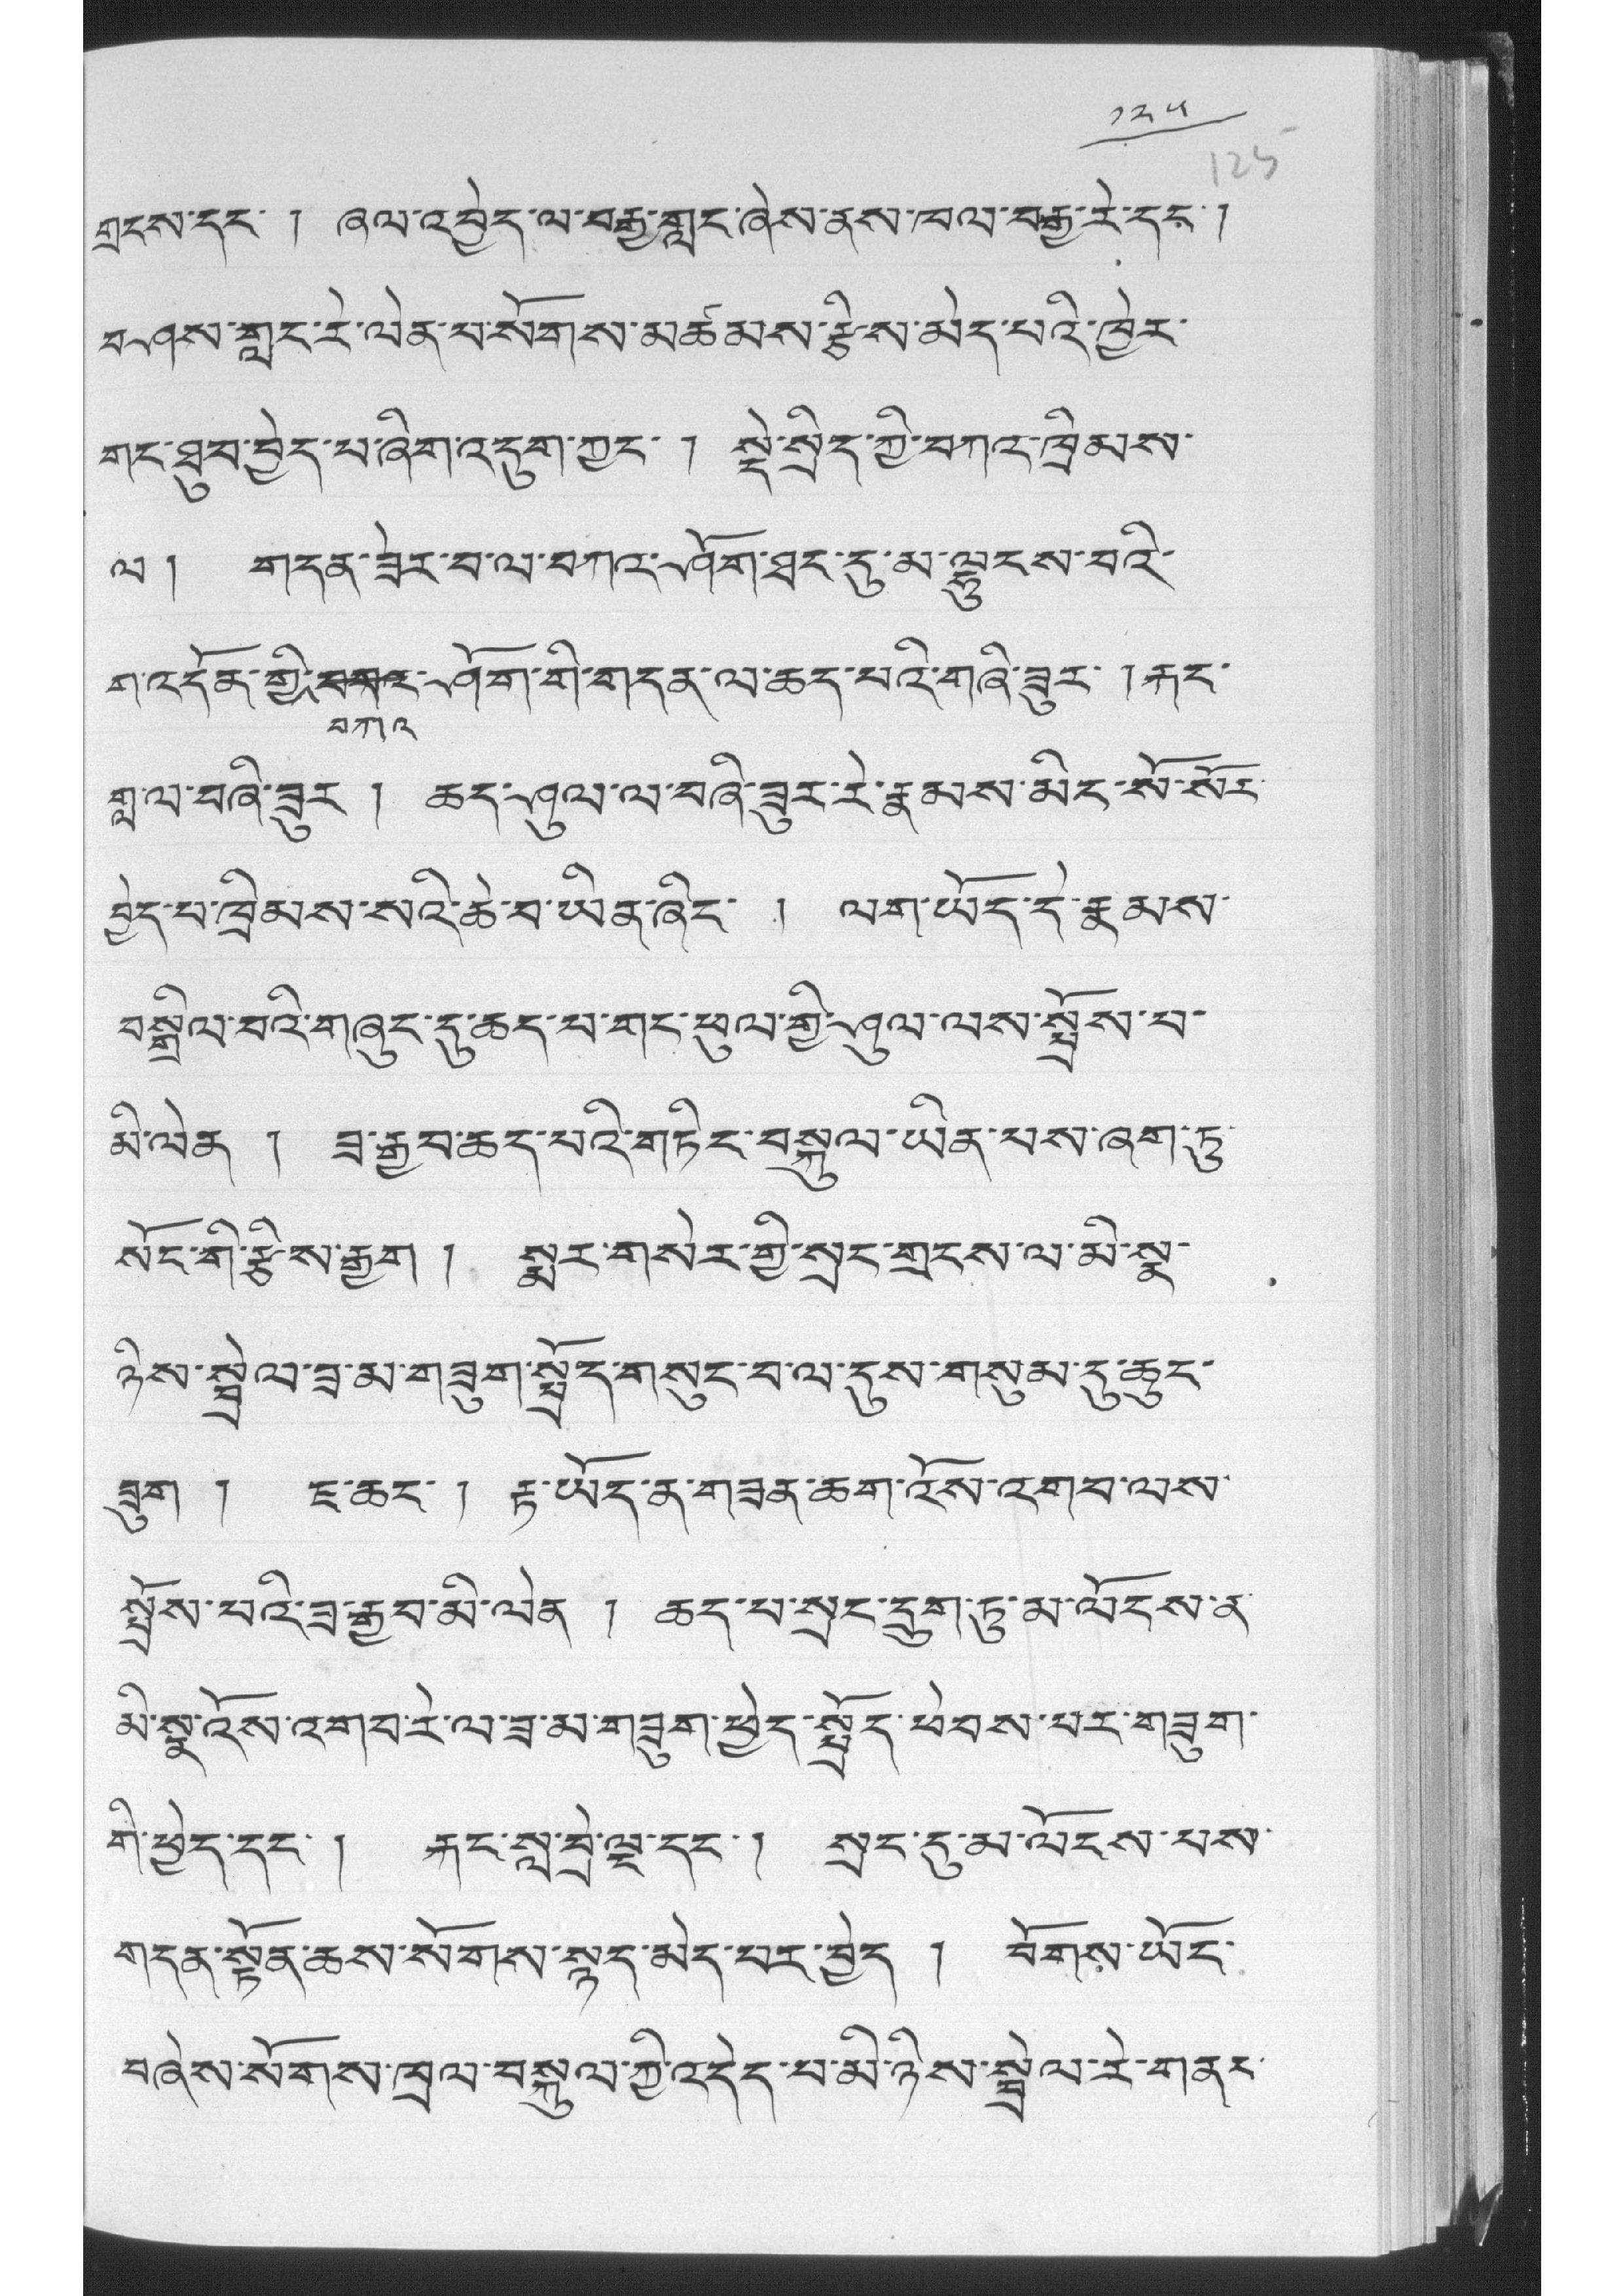༡༢༥
གྲངས་དང་ ། ཞལ་འབྱེད་ལ་བརྒྱ་གླང་ཞེས་ནས་ཁལ་བརྒྱ་རེ་དང་།
བཤས་གླང་རེ་ལེན་པ་སོགས་མཚམས་རྩིས་མེད་པའི་ཁྱེར་
གང་ཐུབ་བྱེད་པ་ཞིག་འདུག་ཀྱང་ ། སྡེ་སྲིད་ཀྱི་བཀའ་ཁྲིམས་
ལ ། གདན་ཟེར་བ་ལ་བཀའ་ཤོག་ཐང་དུ་མ་ལྷུངས་བའི་
ག་འདོན་གྱི་བགའབཀའ་ཤོག་གི་གདན་ལ་ཆད་པའི་གཞི་ཟུར་ །རྐང་
གླ་ལ་བཞི་ཟུར ། ཆད་ཤུལ་ལ་བཞི་ཟུར་རེ་རྣམས་མིང་སོ་སོར་
བྱེད་པ་ཁྲིམས་སའི་ཆེ་བ་ཡིན་ཞིང་ ། ལག་ཡོད་དེ་རྣམས་
བསྒྲིལ་བའི་གཞུང་དུ་ཆད་པ་གང་ཕུལ་གྱི་ཤུལ་ལས་སྤྲོས་པ་
མི་ལེན ། ཟ་རྒྱབ་ཆད་པའི་གཏིང་བསྐུལ་ཡིན་པས་ཞག་ཏུ་
སོང་གི་རྩིས་རྒྱག ། སྨར་གསེར་གྱི་སྲང་གྲངས་ལ་མི་སྣ་
ཉིས་སྦྲེལ་ཟ་མ་གཟུག་སྤྲོད་གསུང་བ་ལ་དུས་གསུམ་དུ་ཆུང་
ཟུག ། ཇ་ཆང་ ། རྟ་ཡོད་ན་གཟན་ཆག་འོས་འགབ་ལས་
སྤྲོས་པའི་ཟ་རྒྱབ་མི་ལེན ། ཆད་པ་སྲང་དྲུག་ཏུ་མ་ལོངས་ན་
མི་སྣ་འོས་འགབ་རེ་ལ་ཟ་མ་གཟུག་ཕྱེད་སྤྲོད་ཕེབས་པར་གཟུག་
གི་ཕྱེད་དང་། རྐང་སླ་བྲེ་ལྔ་དང་། སྲང་དུ་མ་ལོངས་པས་
གདན་སྟོན་ཆས་སོགས་སྙད་མེད་པར་བྱེད ། བོགས་ཡོང་
བཞེས་སོགས་ཁྲལ་བསྐུལ་ཀྱི་འདེད་པ་མི་ཉིས་སྦྲེལ་རེ་གནང་
